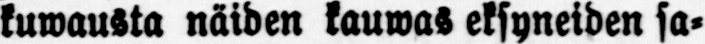kuwausta näiden kauwas eksyneiden sa-
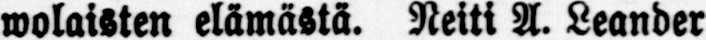wolaisten elämästä. Neiti A. Leander
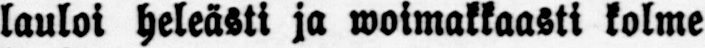lauloi heleästi ja woimakkaasti kolme
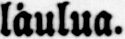laulua.
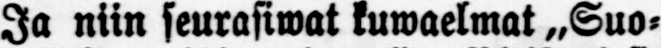Ja niin seurasiwat kuwaelwat „Suo-
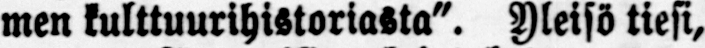men kulttuurihistoriasta". Yleisö tiesi,
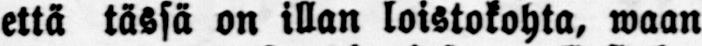että tässä on illan loistokohta, waan
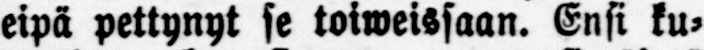eipä pettynyt se toiweissaan. Ensi ku-
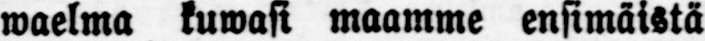waelma kuwasi maamme ensimäistä
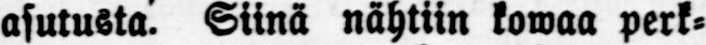asutusta. Siinä nähtiin kowaa perk-
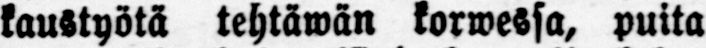kaustyötä tehtäwän korwessa, puita
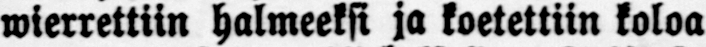wierrettiin halmeeksi ja koetettiin koloa
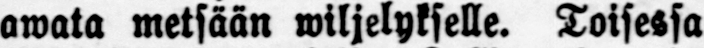awata metsään wiljelykselle. Toisessa
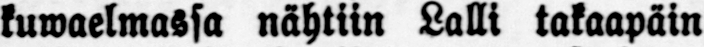kuwaelmassa nähtiin Lalli takaapäin
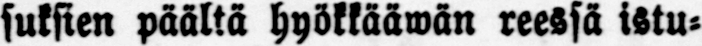suksien päältä hyökkäävän reessä istu-
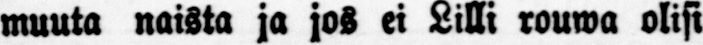muuta naista ja jos ei Lilli rouwa olisi
